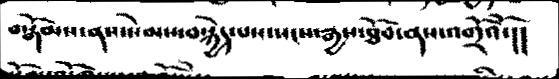བསྒོམས་ནས་སེམས་བསྐྱེད་པས་སངས་རྒྱས་ཐོབ་ནས་འགྲོའོ་།།
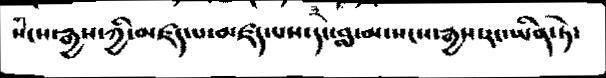སངས་རྒྱས་ཀྱི་མཛད་པ་མཛད་པས་དང་བླ་མ་སངས་རྒྱས་རང་ཡིན་ཏེ་
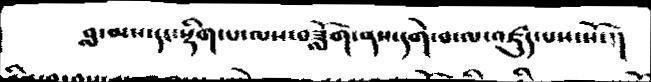བླ་མས་དང་སྡིག་པ་ལས་བཟློག་ནས་དགེ་བ་ལ་འཛུད་པས་སོ་།།
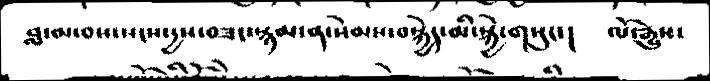བླ་མ་བས་སངས་དྱས་བཟང་སྙམ་ན་སེམས་བསྐྱེད་མི་སྐྱེ་གསུང་། ལོ་རྒྱུས་
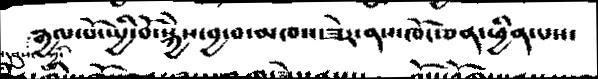རྒྱལ་པོ་སྤྱི་བོ་སྐྱེས་བྱ་བ་མཁས་ཟེར་ནས་ཁོང་ཅན་ཕྱིན་པས་
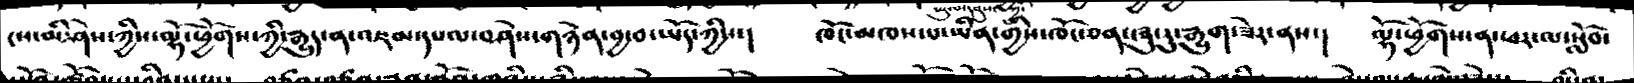ངས་མི་ཤེས་ཀྱིས་ལྷོ་ཕྱོགས་ཀྱི་རྒྱུད་ན་འཇམ་དཔལ་བཤེས་གཉེན་བྱ་བ་ཡོད་ཀྱིས་།  ཁོང་མཁས་པ་ཡིན་གྱིས་ཁོང་ཅན་ཞུ་རུ་རྒྱུག་ཟེར་ནས་།  ལྷོ་ཕྱོགས་ན་ཕར་ལ་སློབ་
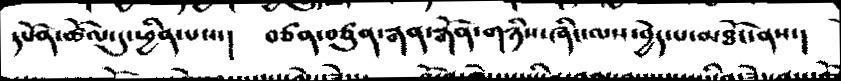དཔོན་ཚོལ་དུ་ཕྱིན་པས་།  བཙན་བཙུན་རྒན་རྒོན་གཉིས་ཞིང་ལས་བྱེད་པ་མཐོང་ནས་།
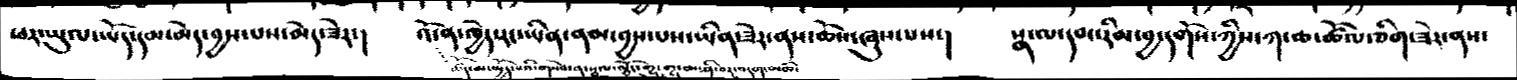ཕར་ཡུལ་ཡོད་དམ་མེད་་བྱས་པས་མེད་ཟེར་།   ཚོད་མ་སྤྱོད་པའི་གསེབ་ན་སྦལ་ལྕོང་གྱུ་གྱུ་མ་ཤི་བར་བདག་མཆི་  འོ་ན་ཁྱེད་རང་ཡིན་ནམ་བྱས་པས་ཡིན་ཟེར་ནས་ཆོས་ཞུས་པས་།  སྣ་ལ་དབང་རིམ་བྱ་དགོས་ཀྱིས་ཀ་ཆ་ཚོལ་ཅིག་ཟེར་ནས་
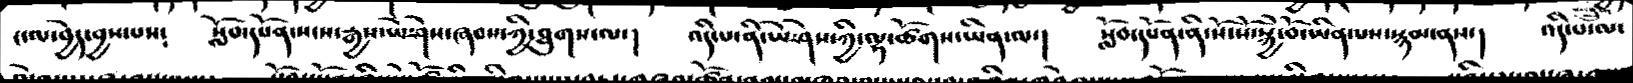ང་ལ་བྱེད་བྱས་པས༴   སློབ་དཔོན་སངས་རྒྱས་ཡེ་ཤེས་ཞབས་ཀྱི་ཐུགས་ལ་།   འདི་པ་ནི་ཡེ་ཤེས་ཀྱི་ལྷ་ཚོགས་ཡིན་ལ་།   སློབ་དཔོན་ནི་སོ་སོ་སྐྱེ་བོ་ཡིན་པས་སྙམ་ནས་།  འདི་པ་ལ་
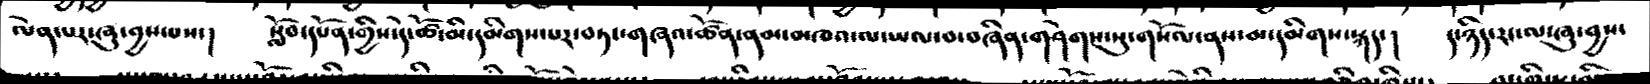ལེན་པར་ཞུ་བྱས་པས་།   སློབ་དཔོན་གྱིས་དེ་ཚོ་མི་དམིགས་པར་བཏང་གཞའ་ཚོན་ནམ་མཁའ་ལ་ཡལ་བ་བཞིན་གཤེགས་སུ་གསོལ་ནས་མ་དམིགས་སྐད་།   ད་ཉིད་རང་ལ་ཞུ་བྱས་
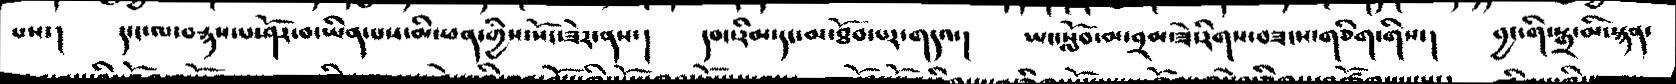པས་།. ད་ང་ལ་བརྙས་པ་ཤོར་བ་ཡིན་པས་མི་ཕན་གྱིས་སོང་ཟེར་ནས་། དབང་རིམ་དང་མ་ཐོབ་པར་གདའ་།  ཡང་སློབ་མ་བྲམ་ཟེ་རིགས་བཟངས་གཅིག་གིས་།  བྱང་གི་སྒྲ་མི་སྙན་
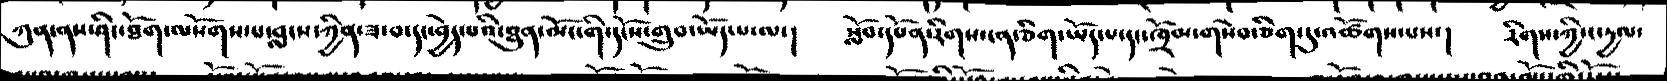ཀུན་ནས་ཤིང་ཐོག་ལསོགས་པ་བླངས་ཀྱིན་ཟ་བ་དང་བྱེད་པའི་ཐུན་མོང་གི་དངོས་གྲུབ་ཡོད་པ་ལ་།  སློབ་དཔོན་རིགས་ངན་ཅིག་ཡོད་པ་དང་ཁྲོམ་གསེབ་ཅིག་དུ་འཚོགས་པས་། རིགས་ཀྱིས་དྱལ་
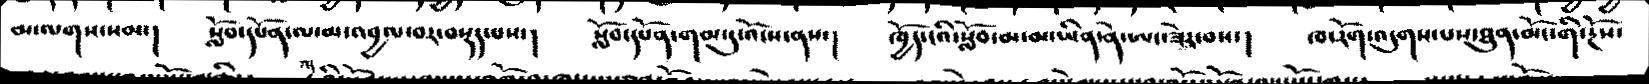མ་ལགས་སམ་།  སློབ་དཔོན་ལ་མ་འབྱལ་བར་བསྡད་པས་།  སློབ་དཔོན་གམ་དུ་འོངས་ནས་།  ཁྱོད་ངའི་སློབ་མ་ཡིན་ནེ་ཨང་ཟེར་བས་། ཁ་རོག་འདུགས་པས་ཐུན་མོང་གི་རྔོས་
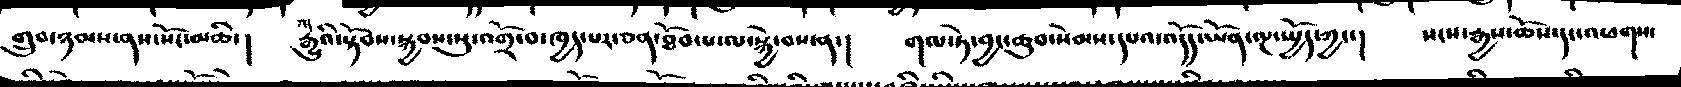གྲུབ་ཉམས་ནས་སོང་མཆི་།  རྒྱུའི་སྟོབས་སྐྱབས་སུ་འགྲོ་བ་ཁྱད་པར་ཅན་ཐོབ་པ་ལ་སྐྱེ་བས་ན་།  གལ་ཏེ་བྱང་ཆུབ་སེམས་དཔའ་འདོད་ཡོན་ལྔ་སྤྱོད་ཀྱང་།  སངས་རྒྱས་ཆོས་དང་འཕགས་
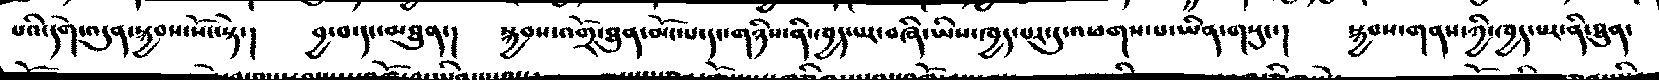པའི་དགེ་འདུན་སྐྱབས་སོང་སྟེ་།  བྱ་བ་དང་མཐུན་།  སྐྱབས་འགྲོ་ཐུན་མོང་པ་དང་གཉིས་ནི་ཁྱད་པར་བཞི་ཡིས་ཁྱད་པར་དུ་འཕགས་པ་ཡིན་གསུང་།  སྐྱབས་གནས་ཀྱི་ཁྱད་པར་ནི་ཐུན་
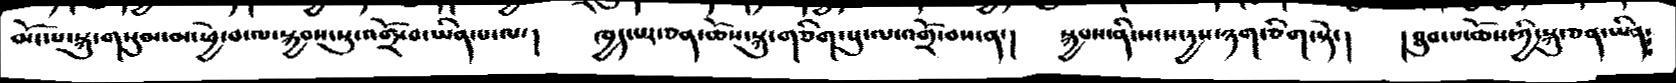མོང་པ་སྐུ་གསུམ་མ་ཕྱེ་བ་ལ་སྐྱབས་སུ་འགྲོ་བ་ཡིན་པ་ལ་།  ཁྱད་པར་ཅན་ཆོས་སྐུ་གཅིག་པུ་ལ་འགྲོ་བས་ན་།   སྐྱབས་ནི་སངས་དྱས་ཉག་ཅིག་སྟེ་།   །ཐུབ་པ་ཆོས་ཀྱི་སྐུ་ཅན་ཡིན༴
